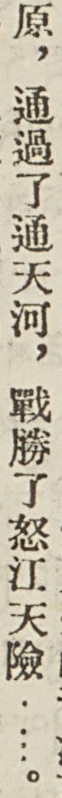原，通過了通天河，戰勝了怒江天險……。
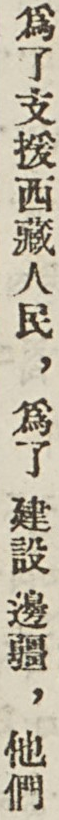爲了支援西藏人民，爲了 建設 邊疆，他們
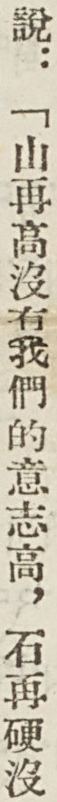說：「山再高沒有我們的意志高，石再硬沒
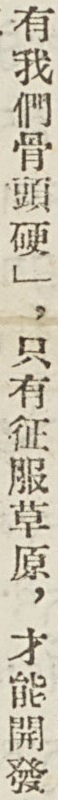有我們骨頭硬」，只有征服草原，才能開發
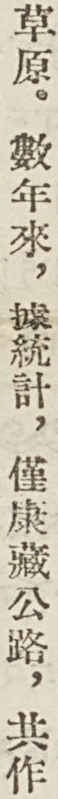草原。數年來，據統計，僅康藏公路，共作
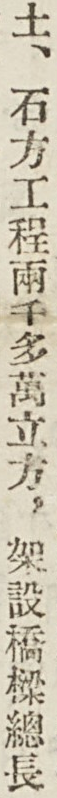土、石方工程兩千多萬立方，架設橋樑總長
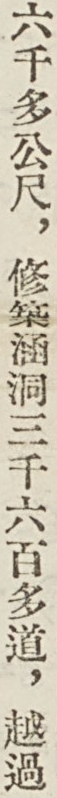六千多公尺，修築涵洞三千六百多道，越過
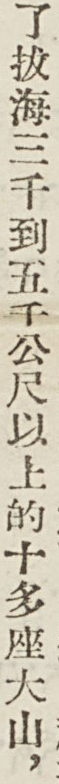了拔海三千到五千公尺以上的十多座大山，
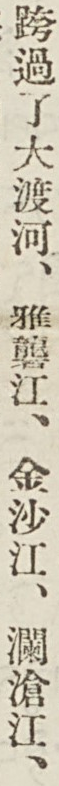跨國了大渡河、雅礱江、金沙江、瀾滄江、
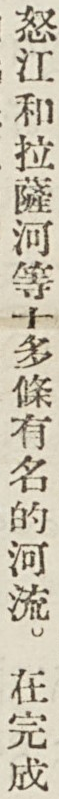怒江和拉薩河等十多條有名的河流。在完成
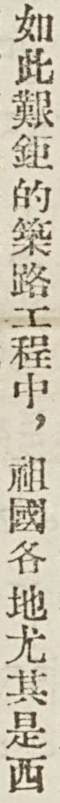如此艱鉅的築路工程中，祖國各地尤其是西
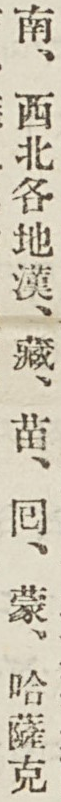南、西北各地漢、藏、苗、囘、蒙、哈薩克
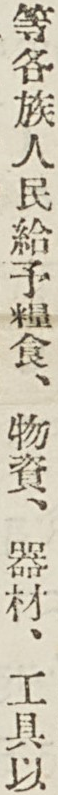等各族人民給予糧食、物資、器材、工具以
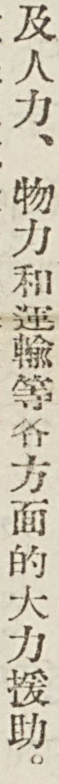及人力、物力和運輸等各方面都大力援助。
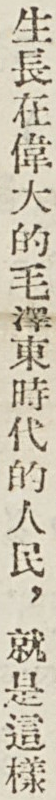生長在偉大的毛澤東時代的人民，就是這樣
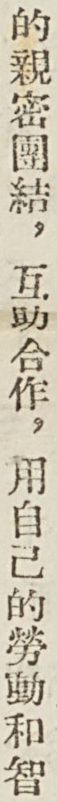的親密團結，互助合作，用自己的勞動和智
